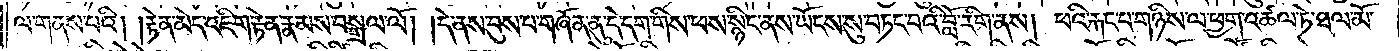ལ་གནས་པའི། །རྟེན་མེད་འཇིག་རྟེན་རྣམས་བསྒྲལ་ལོ། །དེ་ནས་བུས་པ་གཞོན་ནུ་དེ་དག་གིས་ཕས་སྙིང་ནས་ཡོངས་སུ་བཏང་བའི་བློ་རིག་ནས། ཕའི་རྐང་པ་གཉིས་ལ་ཕྱག་འཚལ་ཏེ་ཐལ་མོ་
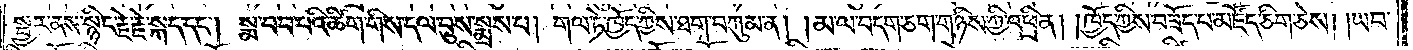སྦྱར་ནས་སྙིང་རྗེ་རྗེ་སྐད་དང༌། སྨ་བབ་པའི་ཚིག་གིས་དལ་བུས་སྨྲས་པ། གལ་ཏེ་ཁྱོད་ཀྱིས་ཐག་བཀུམ་ན། །མ་ལ་བདག་ཅག་གཉིས་ཀྱི་འཕྲིན། །ཁྱོད་ཀྱིས་བཟོད་པ་མཛོད་ཅིག་ཅེས། །ཡབ་
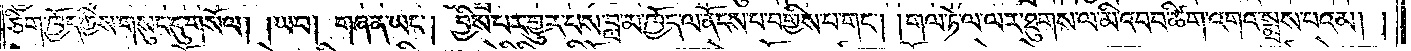ཅིག་ཁྱོད་ཀྱིས་གསུང་དུ་གསོལ། །ཡབ། གཞན་ཡང༌། བྱིས་པར་གྱུར་པས་བླ་མ་ཁྱོད་ལ་ནོངས་པ་བགྱིས་པ་གང༌། །གལ་ཏེ་ལ་ལར་ཐུགས་ལ་མི་འབབ་ཚིག་འགའ་སྨྲས་པའམ། །
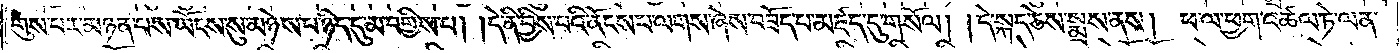གུས་པར་མཉན་པས་ཡོངས་སུ་མཉེས་པ་ཉིད་དུ་མ་བགྱིས་པ། །དེ་ནི་བྱིས་པའི་ནོངས་པ་ལགས་ཞེས་བཟོད་པ་མཛད་དུ་གསོལ། །དེ་སྐད་ཅེས་སྨྲས་ནས། ཕ་ལ་ཕྱག་འཚལ་ཏེ་ལན་
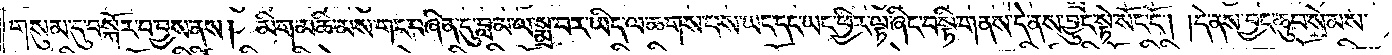གསུམ་དུ་བསྐོར་བ་བྱས་ནས། མིག་མཆི་མས་གང་བཞིན་དུ་བླ་མ་ལ་སྨྲ་བར་ཡིད་ལ་ཆགས་པས་ཡང་དང་ཡང་ཕྱིར་ལྟ་ཞིང་བསྟི་གནས་དེ་ནས་བྱུང་སྟེ་སོང་ངོ༌། །དེ་ནས་བྱང་ཆུབ་སེམས་
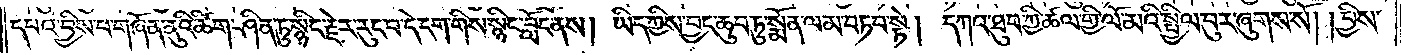དཔའ་བྱིས་པ་གཞོན་ནུའི་ཚིག་ཤིན་ཏུ་སྙིང་རྗེར་རུང་བ་དེ་དག་གིས་སྙིང་བློང་ནས། ཡིད་ཀྱིས་བྱང་ཆུབ་ཏུ་སྨོན་ལམ་བཏབ་སྟེ། དཀའ་ཐུབ་ཀྱི་ཚལ་གྱི་ལོ་མའི་སྤྱིལ་བུར་ཞུགས་སོ། །བྱིས་
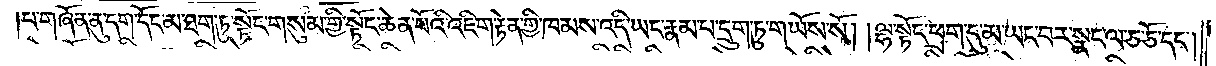པ་གཞོན་ནུ་དག་དོང་མ་ཐག་ཏུ་སྟོང་གསུམ་གྱི་སྟོང་ཆེན་པོའི་འཇིག་རྟེན་གྱི་ཁམས་འདི་ཡང་རྣམ་པ་དྲུག་ཏུ་གཡོས་སོ། །ལྷ་སྟོང་ཕྲག་དུ་མ་ཡང་བར་སྣང་ལ་ཅ་ཅོ་དང༌།
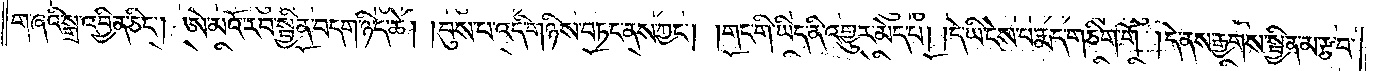གཞའི་སྒྲ་འབྱིན་ཅིང༌། ཨེ་མའོ་རབ་སྦྱིན་བདག་ཉིད་ཆེ། །བུས་པ་འདི་གཉིས་བཏང་ནས་ཀྱང༌། །གང་གི་ཡིད་ནི་འགྱུར་མེད་པ། །དེ་ཡི་ངེས་པ་རྨད་གཅིག་གོ །དེ་ནས་རྒྱགས་སྦྱིན་མ་རྩ་བ་
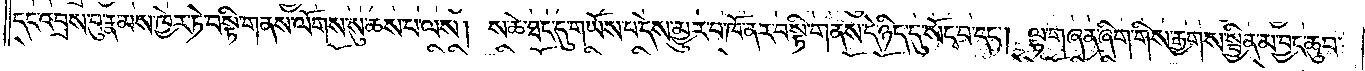དང་འབྲས་བུ་རྣམས་ཁྱེར་ཏེ་བསྟི་གནས་ལོགས་སུ་ཆས་པ་ལས། ས་ཆེ་ཐང་དུ་གཡོས་པ་དེས་མྱུར་བ་ཁོ་ནར་བསྟི་གནས་དེ་ཉིད་དུ་སོང་བ་དང༌། ལྷ་གཞན་ཞིག་གིས་རྒྱགས་སྦྱིན་མ་བྱང་ཆུབ་
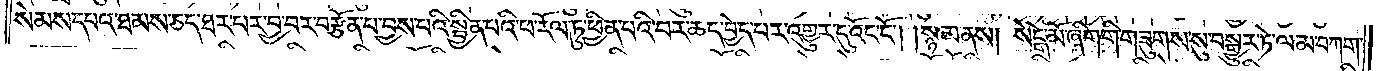སེམས་དཔའ་ཐམས་ཅད་ཐར་པར་བྱ་བར་བརྩོན་པ་བྱས་པའི་སྦྱིན་པའི་ཕ་རོལ་ཏུ་ཕྱིན་པའི་བར་ཆད་བྱེད་པར་འགྱུར་དུ་འོང་ངོ༌། །སྙམ་ནས། སེངྒེ་མོ་ཞིག་གི་གཟུགས་སུ་བསྒྱུར་ཏེ་ལམ་བཀག་
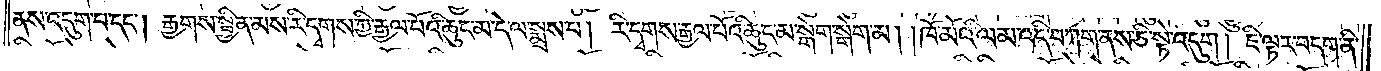ནས་འདུག་པ་དང༌། རྒྱགས་སྦྱིན་མས་རི་དྭགས་ཀྱི་རྒྱལ་པོའི་ཆུང་མ་དེ་ལ་སྨྲས་པ། རི་དྭགས་རྒྱལ་པོའི་ཆུང་མ་སྒེག་སྒེག་མ། །ཁོ་མོའི་ལམ་འདི་བཀག་ནས་ཅི་སྟེ་འདུག །ཇི་ལྟར་བདག་ནི་
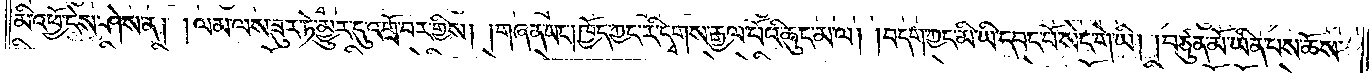མི་འཕྱོ་ངེས་ཤེས་ན། །ལམ་ལས་ཟུར་ཏེ་མྱུར་དུ་འགྲོ་བར་གྱིས། །གཞན་ཡང༌། ཁྱོད་ཀྱང་རི་དྭགས་རྒྱལ་པོའི་ཆུང་མ་ལ། །བདག་ཀྱང་མི་ཡི་དབང་པོ་སེང་གེ་ཡི། །བཙུན་མོ་ཡིན་པས་ཆོས་
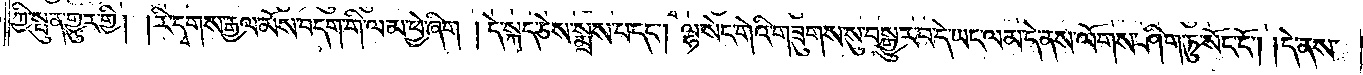ཀྱི་སྤུན་གྱུར་གྱི། །རི་དྭགས་རྒྱལ་མོས་བདག་གི་ལམ་ཕྱེ་ཞིག །དེ་སྐད་ཅེས་སྨྲས་པ་དང༌། ལྷ་སེང་གེའི་གཟུགས་སུ་བསྒྱུར་བ་དེ་ཡང་ལམ་དེ་ནས་ལོགས་ཤིག་ཏུ་སོང་ངོ༌། །དེ་ནས་
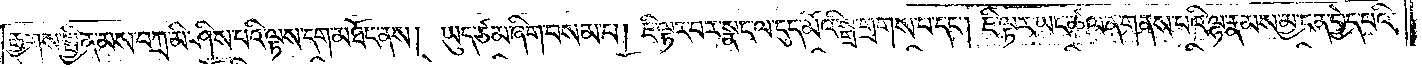རྒྱགས་སྦྱིན་མས་བཀྲ་མི་ཤིས་པའི་ལྟས་དག་མཐོང་ནས། ཡུད་ཙམ་ཞིག་བསམ་པ། ཇི་ལྟར་བར་སྣང་ལ་དུད་མོའི་སྒྲ་གྲགས་པ་དང༌། ཇི་ལྟར་ཡང་ཚལ་ན་གནས་པའི་ལྷ་རྣམས་མྱ་ངན་བྱེད་པའི་
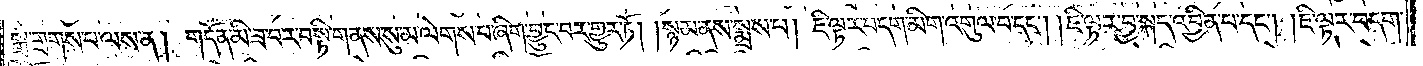སྒྲ་གྲགས་པ་ལས་ན། གདོན་མི་ཟ་བར་བསྟི་གནས་སུ་མ་ལེགས་པ་ཞིག་བྱུང་བར་གྱུར་ཏོ། །སྙམ་ནས་སྨྲས་པ། ཇི་ལྟར་བདག་མིག་འགུལ་བ་དང༌། །ཇི་ལྟར་བྱ་སྐད་འབྱིན་པ་དང༌། །ཇི་ལྟར་བདག་
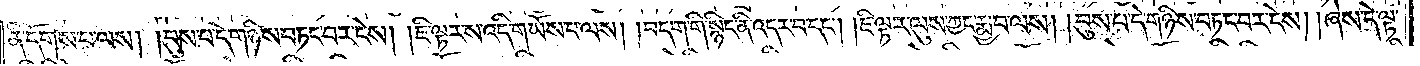ནི་དོགས་པ་ལས། །བུས་པ་དེ་གཉིས་བཏང་བར་ངེས། །ཇི་ལྟར་ས་འདི་གཡོས་པ་ལས། །བདག་གི་སྙིང་ནི་འདར་བ་དང༌། །ཇི་ལྟར་ལུས་ཀྱང་རྨྱ་བ་ལས། །བུས་པ་དེ་གཉིས་བཏང་བར་ངེས། །ཞེས་དེ་ལྟ་
